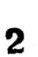2
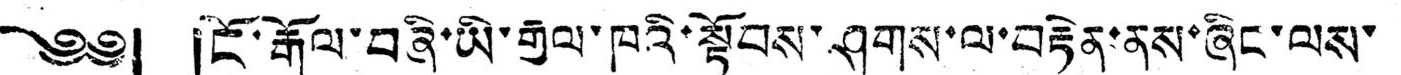༄༅། །ངོ་རྒོལ་བཞི་ཡི་རྒྱལ་ཁའི་སྟོབས་ཤུགས་ལ་བརྟེན་ནས་ཞིང་ལས་
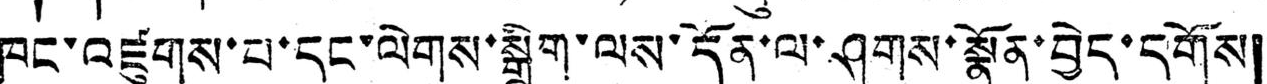ཁང་འཛུགས་པ་དང་ལེགས་སྒྲིག་ལས་དོན་ལ་ཤུགས་སྣོན་བྱེད་དགོས།
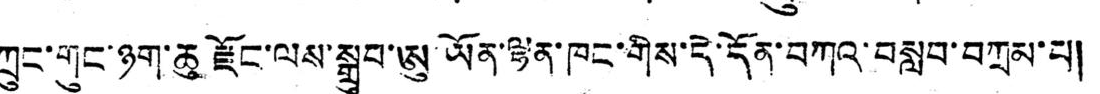ཀྲུང་གུང་ཉག་ཆུ རྫོང་ལས་སྒྲུབ་ཨུ་ཡོན་ལྷན་ཁང་གིས་དེ་དོན་བཀའ་བསླབ་བཀྲམ་པ།
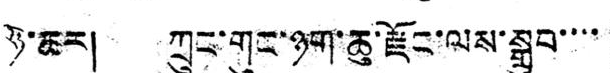ཉེ་ཆར། ཀྲུང་གུང་ཉག་ཆུ་རྫོང་ལས་སྒྲུབ་་་་
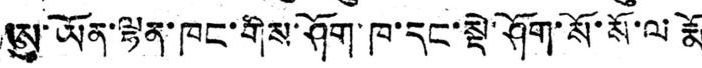ཨུ་ཡོན་ལྷན་ཁང་གིས་ཤོག་ཁ་དང་སྡེ་ཤོག་སོ་སོ་ལ རྨོ
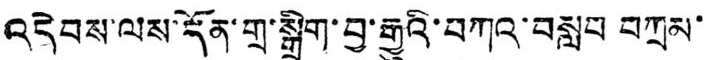འདེབས་ལས་དོན་གྲ་སྒྲིག་བྱ་རྒྱུའི་བཀའ་བསླབ བཀྲམ་
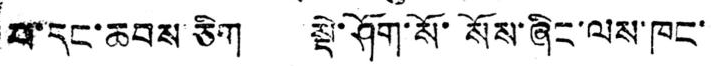པ་དང་ཆབས་ཅིག སྡེ་ཤོག་སོ་སོས་ཞིང་ལས་ཁང་
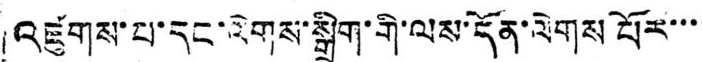འཛུགས་པ་དང་ལེགས་སྒྲིག་གི་ལས་དོན་ལེགས པོར་་་་
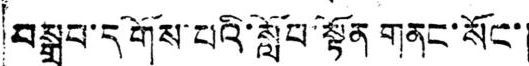བསྒྲུབ་དགོས་པའི་སློབ་སྟོན གནང་སོང་།
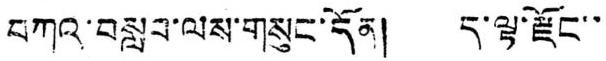བཀའ་བསླབ་ལས་གསུང་དོན། ད་ལྟ་རྫོང་་
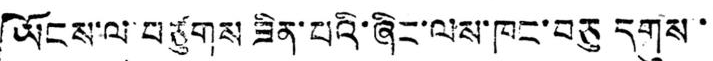ཡོངས་ལ་བཙུགས ཟིན་པའི་ཞིང་ལས་ཁང་བཅུ དགུས་
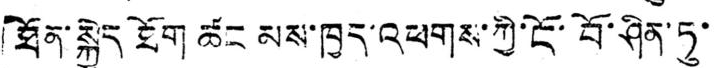ཐོན་སྐྱེད ཐོག ཚང མས་ཁྱད་འཕགས་ཀྱི་ངོ་བོ་ཤིན་ཏུ་
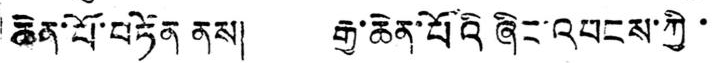ཆེན་པོ་བཏོན ནས། རྒྱ་ཆེན་པོའི ཞིང་འབངས་ཀྱི་
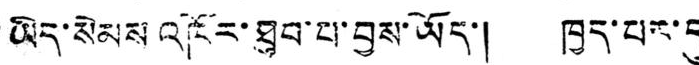ཡིད་སེམས འཁོར་ཐུབ་པ་བྱས་ཡོད་། ཁྱད་པར་དུ
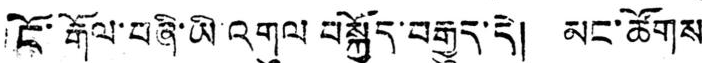ངོ་རྒོལ་བཞི་ཡི་འགུལ བསྐྱོད་བརྒྱུད་དེ། མང་ཚོགས་
